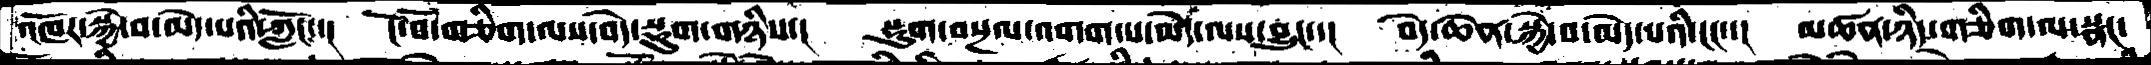འཁོར་སྐྱེ་བ་མེད་པའི་ཀློང་་།  ངོ་བོ་གཅིག་ལས་བདེ་སྡུག་གཉིས་།  སྡུག་བསྔལ་འགག་པ་མེད་ལས་བྱུང་་། བདེ་ཆེན་སྐྱེ་བ་མེད་པའི་ངང་་།  མཚན་ཉིད་གཅིག་ལ་སྣང་
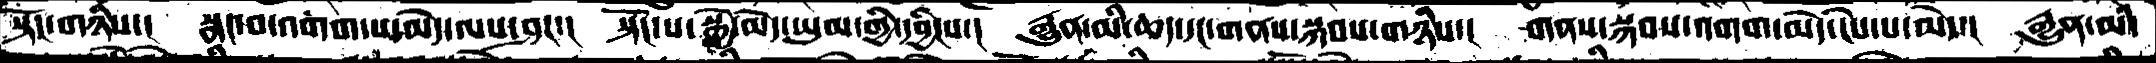སྟོང་གཉིས་།  སྣང་བ་འགག་པ་མེད་ལས་ཤར་།  སྟོང་པ་སྐྱེ་མེད་ཡུམ་གྱི་དབྱིངས་།  རྒྱུན་མི་ཆད་དང་གནས་སྐབས་གཉིས་།  གནས་སྐབས་འགག་མེད་ངེས་པ་མེད་།  རྒྱུན་མི་
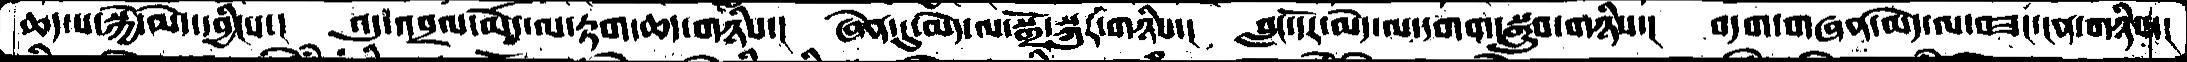ཆད་པ་སྐྱེ་མེད་དབྱིངས་།  འདུ་འབྲལ་མེད་ལ་རྟག་ཆད་གཉིས་།  ཞེན་དུ་མེད་ལ་སྒྲོ་སྐུར་གཉིས་།  བླང་དོར་མེད་ལ་དགག་སྒྲུབ་གཉིས་།  བདག་གཞན་མེད་ལ་བཟང་ངན་གཉིས་།
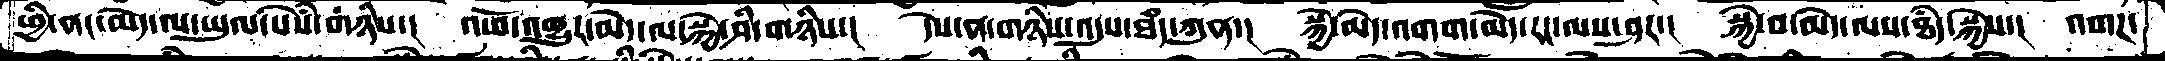ཕྱི་ནང་མེད་ལ་ཡུལ་སེསཾ་གཉིས་།  འཕོ་འགྱུར་མེད་ལ་སྐྱེ་ཤི་གཉིས་།   དེས་ན་གཉིས་འདུས་ཐཾད་ཀུན་།   སྐྱེ་མེད་འགག་མེད་རང་ལས་ཤར་།   སྐྱེ་བ་མེད་ལས་ཐཾད་སྐྱེས་།  འགཌ་
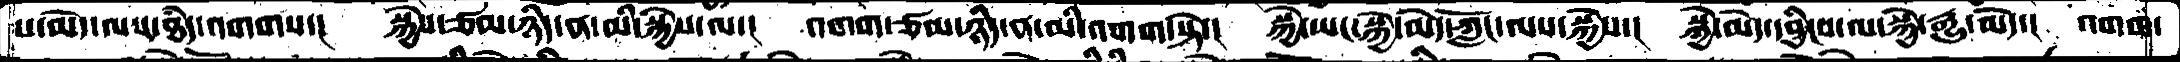པ་མེད་ལས་ཐཾད་འགགས་།   སྐྱེས་ཙམ་ཉིད་ན་མི་སྐྱེས་ལ་།   འགག་ཙམ་ཉིད་ན་མི་འགག་སྟེ་།   སྐྱེ་ཡང་སྐྱེ་མེད་ཀློང་ལས་སྐྱེས་།   སྐྱེ་མེད་དབྱིངས་ལ་སྐྱེ་རྒྱུ་མེད་།  འགག་
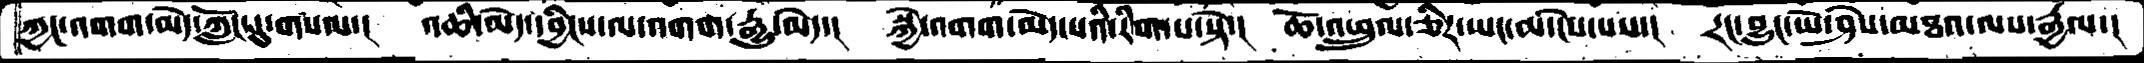ཀྱང་འགག་མེེད་ཀློང་དུ་གསལ་།   འཆི་མེད་དབྱིངས་ལ་འགག་རྒྱུ་མེད་།   སྐྱེ་འགག་མེད་པའི་རིག་པ་སྟེ་།  ཆོ་འཕྲུལ་ཅིར་ཡང་མ་ངེས་པས་།   རང་བྱུང་ཡེ་ཤེས་མཐའ་ལས་རྒྱལ་།
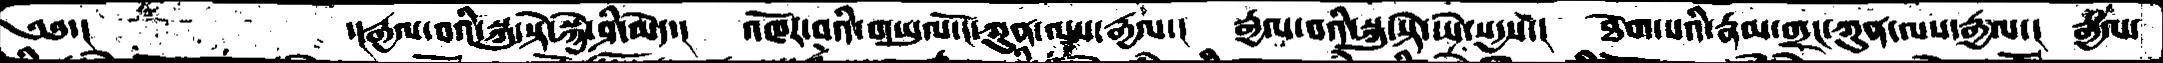༄༅་།            ་།རྒྱལ་བའི་སྐུ་སྟེ་སྐྱེ་ཤི་མེད་།   འཁོར་བའི་གཡུལ་ངོ་ཀུན་ལས་རྒྱལ་།   རྒྱལ་བའི་སྐུ་སྟེ་ཡེ་སདྱས་།   ཐེག་པའི་རྣམ་གྲང་ཀུན་ལས་རྒྱལ་།   རྒྱལ་
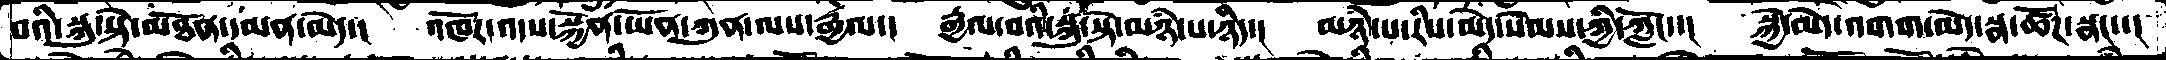བའི་སྐུ་སྟེ་མཐོན་དམན་མེད་།   འཁོར་འདས་སྐྱོན་ཡོན་ཀུན་ལས་རྒྱལ་།   རྒྱལ་བའི་སྐུ་སྟེ་མཉཾ་པ་ཉིད་།  མཉཾ་པ་རིས་མེད་སེམས་ཀྱི་ཀློང་་།   སྐྱེ་མེད་འགག་མེད་སྣ་ཚོཌ་སྣང་་།
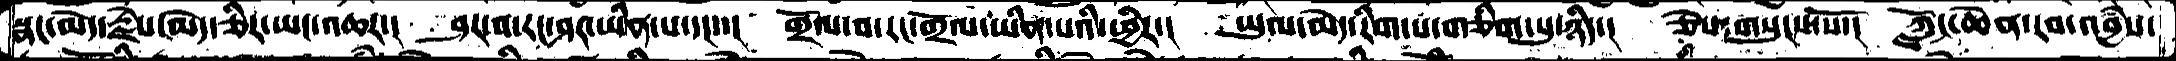སྣང་མེད་རྗེས་མེད་ཅིར་ཡང་འཆར་།  ཤར་བ་རང་ཤར་ཡིན་པ་དང་་།  གྲོལ་བ་རང་གྲོལ་་ཡིན་པའི་ཕྱིར་།  ཡུལ་མེད་རིག་པ་གཅིག་པུ་ཉིད་།  ཅེས་གསུངས་སོ་།  ཀློང་ཆེན་རབ་འབྱཾས་
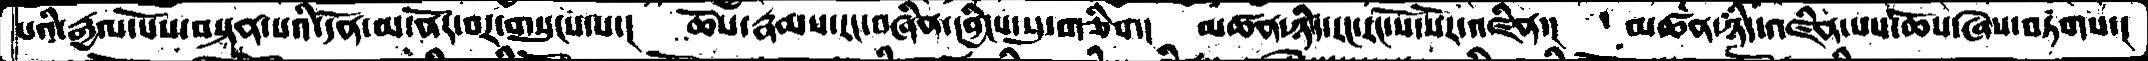པའིརྒྱལ་པོས་བསྟན་པའི་དོན་མ་ནོར་བར་གསུངས་པ་།  ཆོས་རྣམས་རང་བཞིན་དབྱིངས་སུ་གཅིག།  མཚན་ཉིད་རང་རང་སོ་སོར་འཛིན་།  མཚན་ཉིད་འཛིན་པས་ཆོས་ཞེས་བཏགས་།
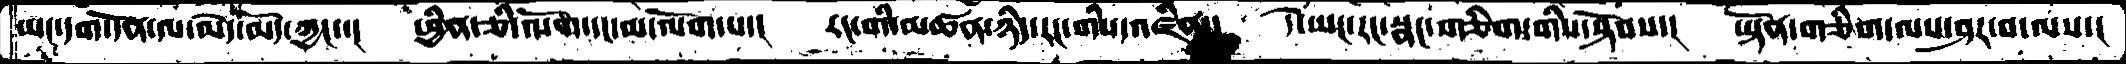ཡང་དག་དོན་ལ་མེད་མོད་ཀྱང་་། ཕྱིན་ཅི་ལོག་དང་མ་ལོག་པ་།  རང་གི་མཚན་ཉིད་རང་གིས་འཛིན་།  དེ་ཡང་རང་སྣང་གཅིག་གིས་སྟོབས་།  ཡྟོན་གཅིག་ལས་ཤར་བ་ལས་།
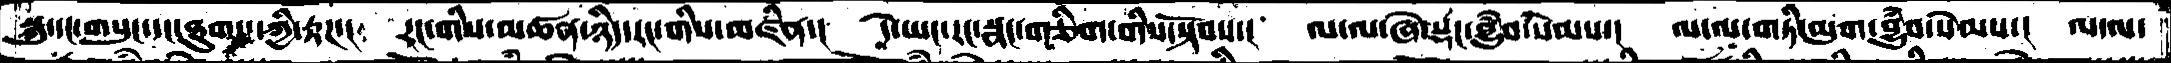སྐུ་དང་གསུང་དང་ཐུགས་ཀྱི་རྟཌ་།  རང་གིས་མཚན་ཉིད་རང་གིས་མཛིན་།  དེ་ཡང་རང་སྣང་གཅིག་གིས་སྟོབས་།  ལ་ལ་ཞེ་སྡང་བྱུཾབ་སེམས་།  ལ་ལ་གཏི་མུག་བྱུཾབ་སེམས་།  ལ་ལ་
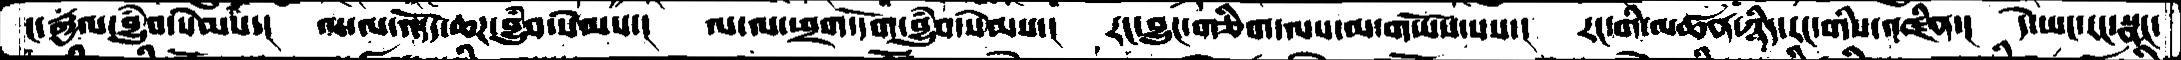ང་རྒྱལ་བྱུཾབ་སེམས་།  ལ་ལ་འདོད་ཆཌ་བྱུཾབ་སེམས་།  ལ་ལ་ཕྲག་དོག་བྱུཾབ་སེམས་།  རང་བྱུང་གཅིག་ལས་མ་གཡོས་པས་།  རང་གི་མཚན་ཉིད་རང་གིས་འཛིན་།  དེ་ཡང་རང་སྣང་
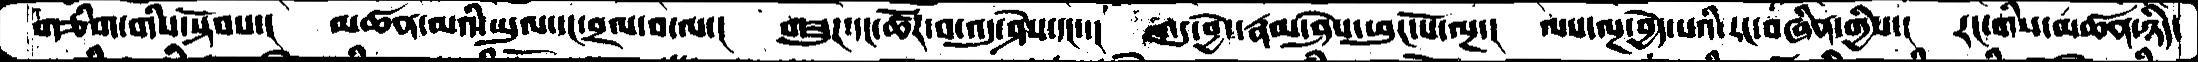གཅིག་གིས་སྟོབས་།  མཚན་མའི་ཡུལ་དང་བྲལ་བ་ལ་།  གཟུཌ་དང་ཚོར་བ་འདུ་ཤེས་དང་་།  འདུ་བྱེད་རྣམ་ཤེས་ཕུང་པོ་ལྔ་།  ལས་ལྔ་བྱེད་པའི་རང་བཞིན་གྱིས་།  རང་གིས་མཚན་ཉིད་
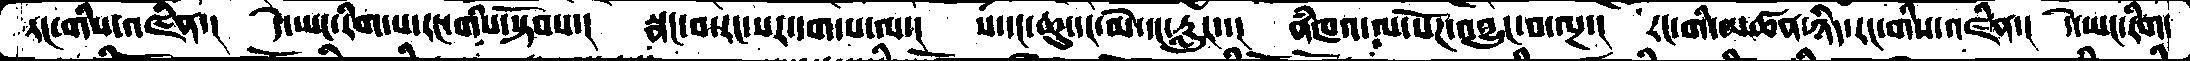རང་གིས་འཛིན་།  དེ་ཡང་རིག་པ་རང་གིས་སྟོབས་།  སྣང་བ་རང་སར་དག་པ་ལ་།  ས་དང་ཆུ་དང་མེ་དང་རླུང་་།  ནཾཁའ་ལ་སོཌ་འབྱུང་བ་ལྔ་།  རང་གི་མཚན་ཉིད་རང་གིས་འཛིན་།  དེ་ཡང་རིག་
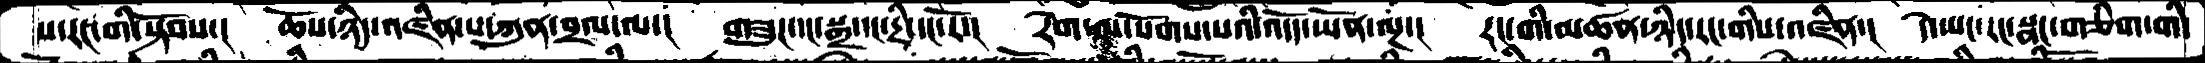པ་རང་གི་སྟོབས་།  ཆོས་ཉིད་འཛིན་པ་ཀུན་བྲལ་ལ་།  གཟུཌ་དང་སྒྲ་དང་དྲི་དང་རོ་།  རེག་ལ་སོགས་པའི་འདོད་ཡོན་ལྔ་།  རང་གི་མཚན་ཉིད་རང་གིས་འཛིན་།  དེ་ཡང་རང་སྣང་གཅིག་གི་
